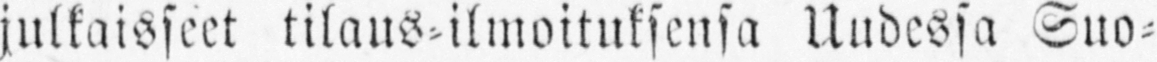julkaisseet tilaus-ilmoituksensa Uudessa Suo-
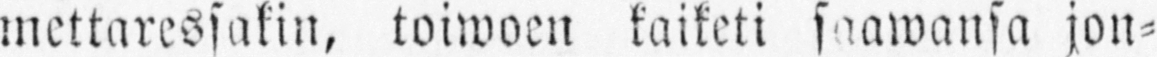mettaressakin, toiwoen kaiketi saawansa jon-
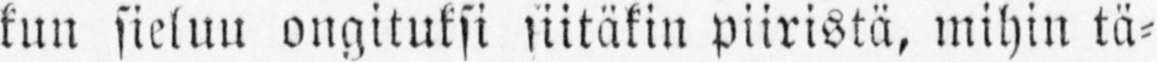kun sieluu ongituksi siitäkin piiristä, mihin tä-
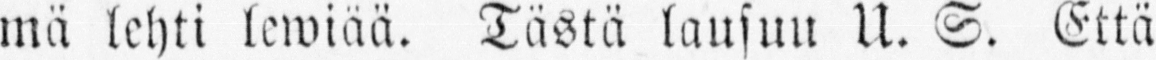mä lehti lewiää. Tästä lausuu U. S. Että
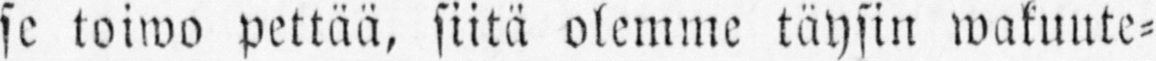se toiwo pettää, siitä olemme täysin wakuute-
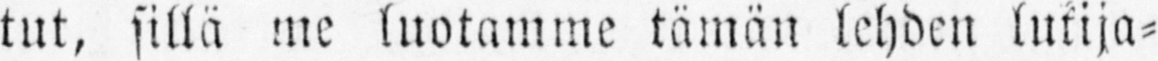tut, sillä me luotamme tämän lehden lukija-
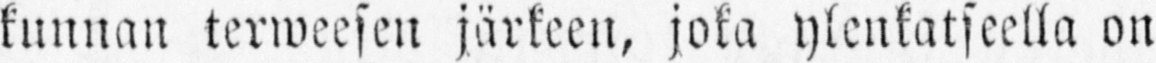kunnan terweesen järkeen, joka ylenkatseella on
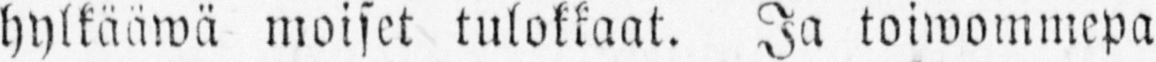hylkääwä moiset tulokkaat. Ja toiwommepa
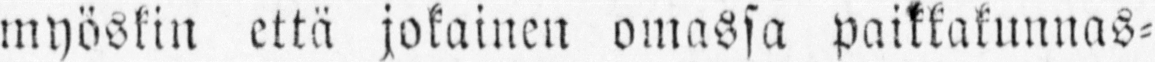myöskin että jokainen omassa paikkakunnas-
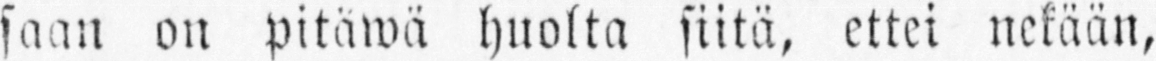saan on pitäwä huolta siitä, ettei nekään,
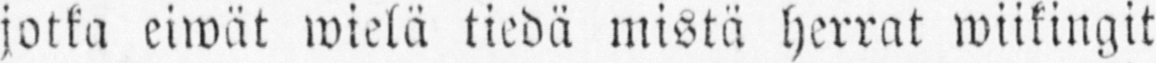jotka eiwät wielä tiedä mistä herrat wiikingit
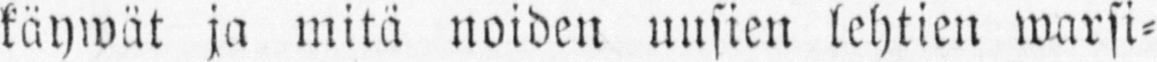käywät ja mitä noiden uusien lehtien warsi-
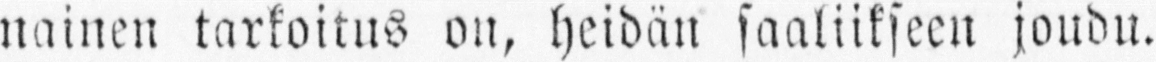nainen tarkoitus on, heidän saaliikseen joudu.
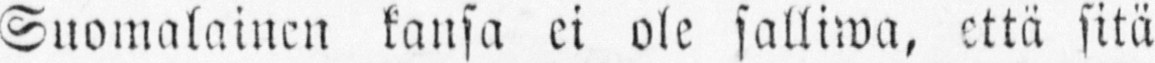Suomalainen kansa ei ole salliwa, että sitä
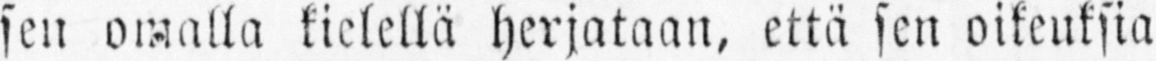sen omalla kielellä herjataan, että sen oikeuksia
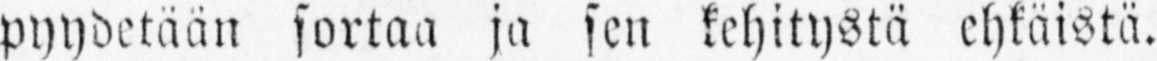pyydetään sortaa ja sen kehitystä ehkäistä.
